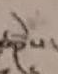ཚེས་
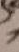༡༦
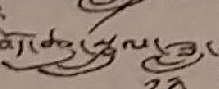བོད་ཆུ་སྦྲུལ་ཟླ་
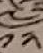༡༢
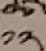༡༢
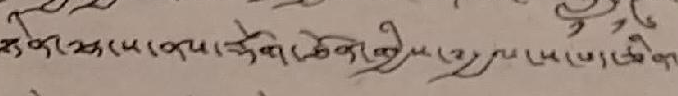ཉིན་ལྷ་ས་ནས་རྡོག་ཐོན་གྱིས་༸རྒྱལ་ས་པད་ཅིན་
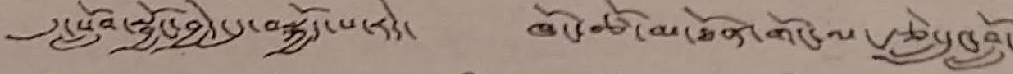དུ་སློབ་སྦྱོང་བྱེད་དུ་བསྐྱོད་པ་རེད་ ཁོང་ཚོ་མ་ཐོན་གོང་ལ་རྩེ་དྲུང་བློ་
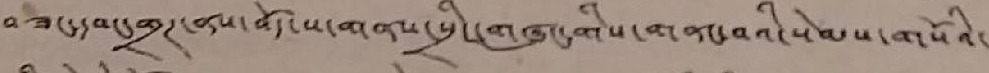བཟང་དབང་གྲཊ་ནས་བོད་ས་གནས་སྲིད་གཞུང་གིས་གནང་བའི་སེམས་གསོའི་
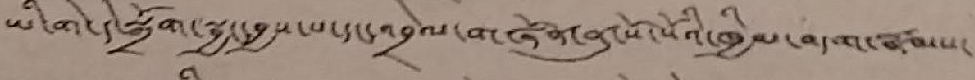ཡི་གེ་དེ་སྒྲོག་སྦྱང་བྱས་པ་དང་འབྲེལ་གཞོན་ནུ་སོ་སོའི་ཁྱིམ་བདག་རྣམས་
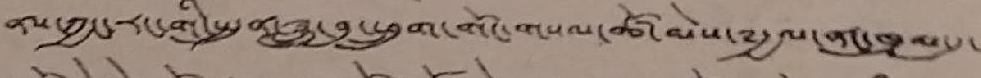ནས་ཀྱང་རང་གི་སྤུན་ཟླ་བུ་ཕྲུག་གོང་གསལ་ཚོ་མེས་༸རྒྱལ་ནང་ཁུལ་དུ་
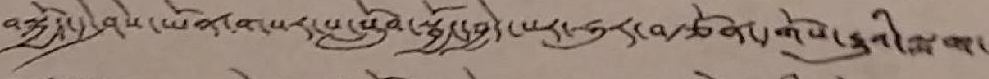བསྐྱོད་དེ་ཤེས་ཡོན་གསར་པ་སློབ་སྦྱོང་བྱེད་པར་ཧུར་བརྩོན་དགོས་རྒྱུའི་སྨག་
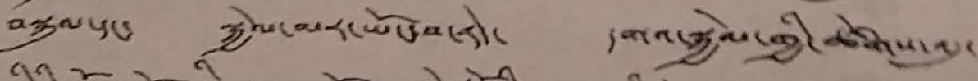བསྐུལ་དང་ སྐྱེལ་མར་ཡོང་བ་རེད་ དགའ་སྐྱེལ་གྱི་ཚོགས་འདུ་
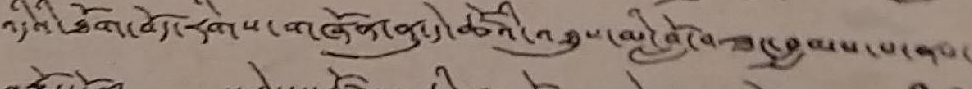འདིའི་ཐོག་བོད་རིགས་གཞོན་ནུ་དེ་ཚོའི་འཐུས་མི་བློ་བཟང་བྱམས་པ་ནས་
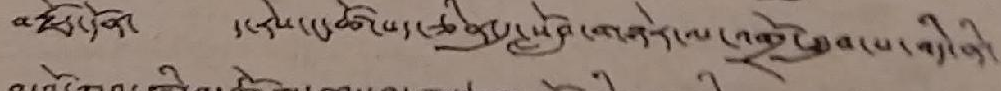བརྗོད་དོན་ ད་རེས་ང་ཚོ་པད་ཅིན་དུ་སློབ་གཉེར་ལ་འགྲོ་ཐུབ་པ་འདི་ནི་
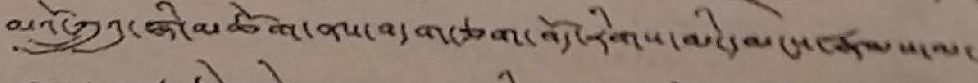མོའོ་ཀྲུའུ་ཞི་མཆོག་ནས་བདག་ཅག་བོད་རིགས་མི་དམངས་རྣམས་ལ་
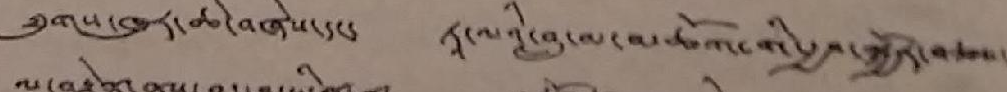ཐུགས་ཁུར་ཆེ་བཞེས་དང་ ཏཱ་ལའི་བླ་མ་མཆོག་གི་རྒྱབ་སྐྱོར་བཅས་
